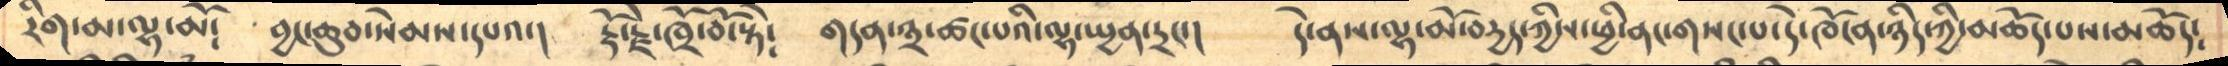རིག་མ་ལྷ་མོ༴   བྱང་ཆུབ་སེམས་དཔའ་།   རྡོ་རྗེ་ཁྲོ་བོ་སྟེ༴   གདན་༣་ཚང་པའི་ལྷ་སྤྱན་དྲང་།   དེ་ནས་ལྷ་མོ་བདྱད་ཀྱིས་ཕྱི་ནང་གསང་པ་དེ་ཁོ་ན་ཉིད་ཀྱི་མཆོད་པས་མཆོད༴
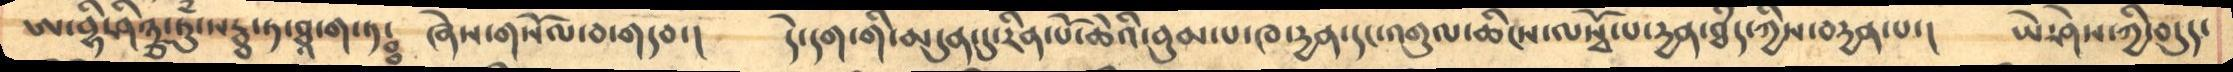ཨ་བྷི་ཤིཉྩ་ཏུཾ་སརྠ་ཏ་ཐཱ་ག་ཏཿ   ཞེས་གསོལ་བ་གདབ་།   དེ་དག་གི་མདུན་དུ་རིན་པོ་ཆེའི་བུམ་པ་ཁ་དྱན་དང་འགུལ་ཆིངས་ལསྭོ་པ་དྱན་ཐཾད་ཀྱིས་བདྱན་པ་།   ཡེ་ཤེས་ཀྱི་བདུད་
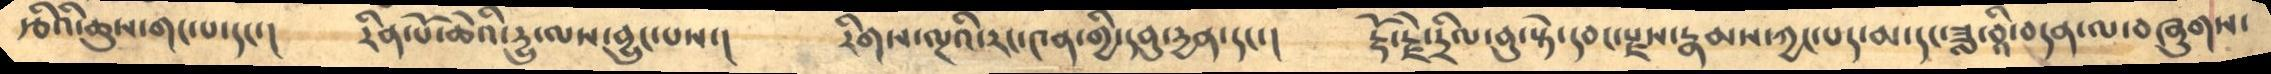རྩིའི་ཆུས་གང་པ་དང་།    རིན་པོ་ཆེའི་དྱུ་ལས་བྱུང་པས་།    རིགས་ལྔའི་རང་༤ན་གྱི་དབུ་དྱན་དང་།   རྡོ་རྗེ་དྲིལ་བུ་སྟེ་དབང་རྫས་རྣམས་ཀྱང་པད་མ་དང་ཟླ་བི་བདན་ལ་བཞུགས་
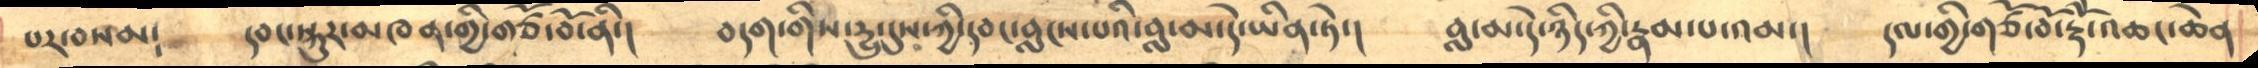པར་བསམ༴   དབང་སྐུར་མཁན་གྱི་གཙོ་བོ་ནི་།   བདག་གིས་དྱུ་དུས་ཀྱི་དབང་བླངས་པའི་བླ་མ་དེ་ཡིན་ཏེ་།   བླ་མ་དེ་ཉིད་ཀྱི་རྣམ་པ་འམ་།   དལ་གྱི་གཙོ་བོ་རྡོ་ེ་འཆང་ཆེན
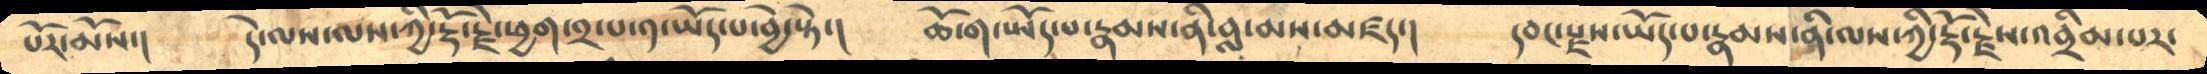སོར་མོས་།    དེ་ལས་ལས་ཀྱི་རྡོ་རྗེ་ཕྱག་༢་པ་༡་ཡོད་པ་བྱེ་སྟེ་་།   ཆོ་ག་ཡོད་པ་རྣམས་ནི་བླ་མས་མཛད་།    དབང་རྫས་ཡོད་པ་རྣམས་ནི་ལས་ཀྱི་རྡོ་རྗེས་འབྲིམ་པར་
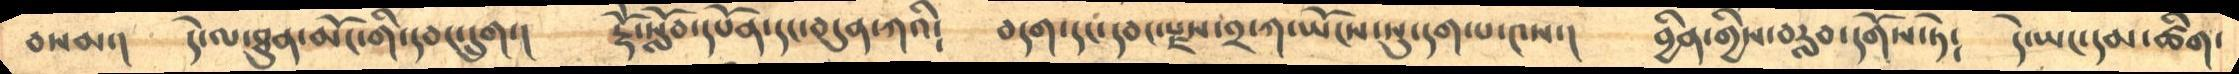བསམ་།   དེ་ལ་ཐུན་མོང་གི་དབང་དྲུག་།   རྡོེ་སློབ་དཔོན་དང་བདུན་ཀའི༴     བདག་དང་དབང་རྫས་༢་ཀ་ཡོངས་སུ་དག་པ་༤ས་།   བྱིན་གྱིས་བརླབ་དགོས་ཏེ༴    དེ་ཡང་དམ་ཚིག་
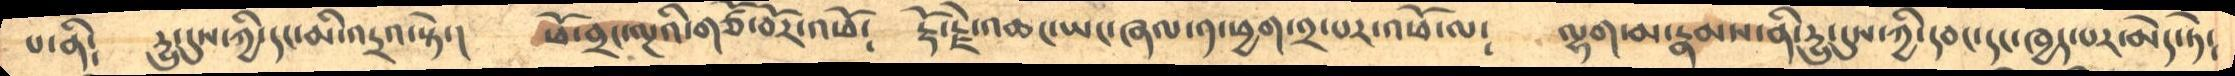པ་ནི༴   དྱུ་དུས་ཀྱི་དང་མི་འདྲའ་སྟེ་།   ཕོ་བྲང་ལྔའི་གཙོ་བོར་འཕོ༴   རྡོ་རྗེ་འཆང་ཡང་ཞལ་༡་ཕྱག་༢་པར་འཕོ་ལ༴  ལྷག་མ་རྣམས་ནི་དྱུ་དུས་ཀྱི་དབང་དང་ཁྱད་པར་མེད་ཏེ༴
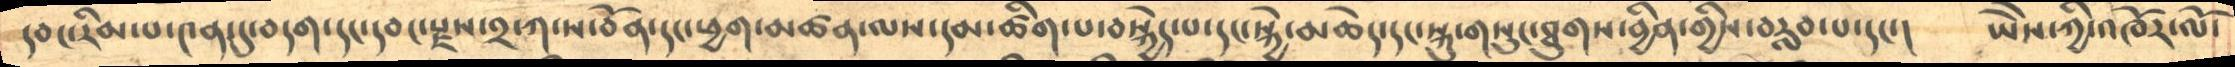དབང་རིམ་པ་༤ན་དུ་བདག་དང་དབང་རྫས་༢་ཀ་ས་བོན་དང་ཕྱག་མཚན་ལས་དམ་ཚིག་པ་བསྐྱེད་པ་དང་སྐྱེ་མཆེད་དང་སྐུ་གསུང་ཐུགས་བྱིན་གྱིས་བརླབ་པ་དང་།  ཡཻས་ཀྱི་འཁོར་ལོ་
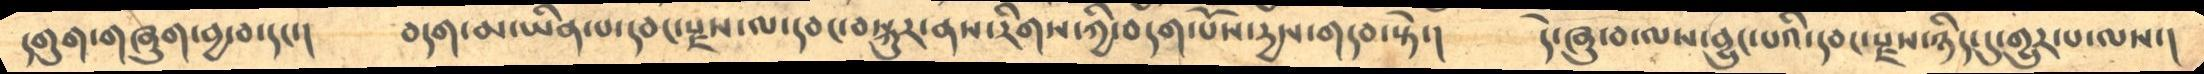དགུག་གཞུག་བྱ་བ་དང་།    བདག་མ་ཡིན་པ་དབང་རྫས་ལ་དབང་བསྐུར་ནས་རིགས་ཀྱི་བདག་པོས་དྱས་གདབ་སྟེ་།    དེ་ཞུ་བ་ལས་བྱུང་པའི་དབང་རྫས་ཉིད་དུ་གྱུར་པ་ལས་།
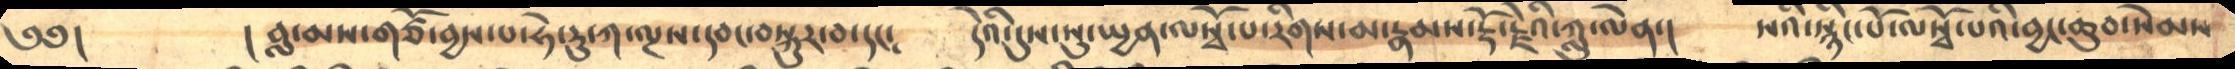༄༅།        ། བླ་མས་གཙོ་བྱས་པ་ཧེ་རུ་ཀ་ལྔས་དབང་བསྐུར་བ་དང༴    དེའི་དུས་སུ་སྤྱན་ལསྭོ་པ་རིགས་མ་རྣམས་རྡོ་རྗེའི་ཀླུ་ལེན་།    སའི་སྙིང་པོ་ལསྭོ་པའི་བྱང་ཆུབ་སེམས
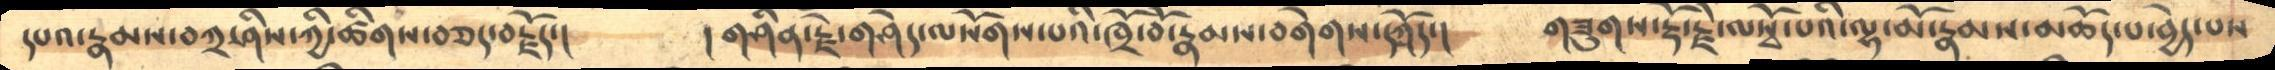དཔའ་རྣམས་བཀྲ་ཤིས་ཀྱི་ཚིགས་བཅད་བརྗོད་།    །གཤིན་རྗེ་གཤེད་ལསོགས་པའི་ཁྲོ་བོ་རྣམས་བགེགས་དཀྲོད་།      གཟུགས་རྡོ་རྗེ་ལསྭོ་པའི་ལྷ་མོ་རྣམས་མཆོད་པ་བྱེད་པས
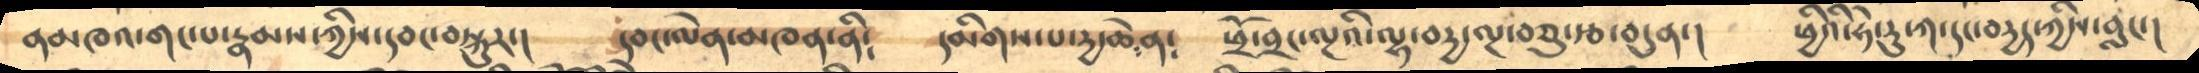ནམཁའ་གང་པ་རྣམས་ཀྱིས་དབང་བསྐུར་།    དབང་ལེན་མཁན་ནི༴   དམིགས་པ་དྱ་ཆེན༴   ཕྲོ་བྲང་ལྔའི་ལྷ་བདྱ་ལྔ་བཅུ་རྩ་བདུན་།  ཕྱིའི་ཧེ་རུ་ཀ་དང་བདྱད་ཀྱིས་བླང་།
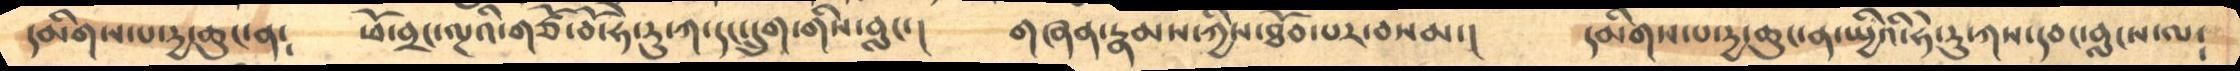དམིགས་པ་དྱ་ཆུང་ན༴    ཕོ་བྲང་ལྔའི་གཙོ་བོ་ཧེ་རུ་ཀ་དང་དྲུག་གིས་བླང་།     གཞན་རྣམས་ཀྱིས་ཐོབ་པར་བསམ་།    དམིགས་པ་དྱ་ཆུང་ན་སྤྱིའི་ཧེ་རུ་ཀས་དབང་བླངས་ལ༴
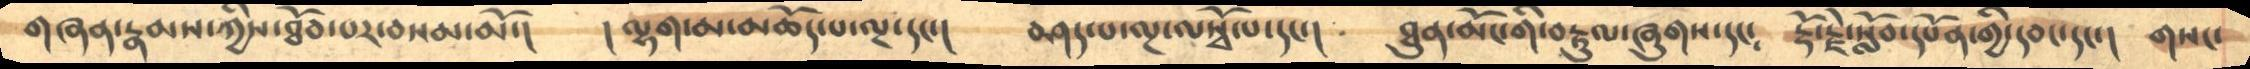གཞན་རྣམས་ཀྱིས་ཐོབ་པར་བསམ་མོ་།   །ལྷག་མ་མཆོད་པ་ལྔ་དང་།   བཤད་པ་ལྔ་ལསྭོ་པ་དང་།    ཐུན་མོང་གི་བརྟུལ་ཞུགས་དང༴    རྡོ་རྗེ་སློབ་དཔོན་གྱི་དབང་དང་།  གསང་
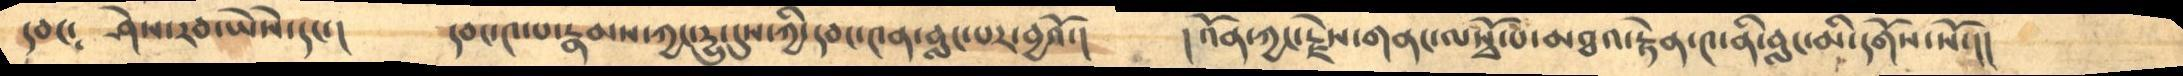དབང༴   ཤེས་རབ་ཡཻས་དང་།    དབང་༤་པ་རྣམས་ཀྱང་དྱུ་དུས་ཀྱི་དབང་༤ན་བླང་པར་བྱའོ་།   །འོན་ཀྱང་རྗེས་གནང་ལསྭོ་པ་མཐའ་རྟེན་༤་ནི་བླང་མི་དགོས་སོ་།།
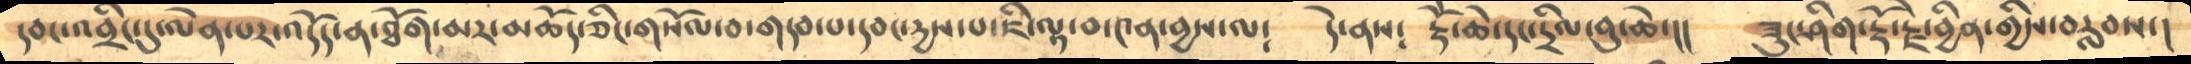དབང་འབྲིང་དུ་ལེན་པར་འདོད་ན་ཐོག་མར་མཆོད་ཅིང་གསོལ་བ་གདབ་པ་དབང་དྱས་པ་ཇི་ལྟ་བ་༤ན་བྱས་ལ༴    དེ་ནས༴  རྡོེ་ཆེ་དང་དྲོལ་བུ་ཆེ་།།   ཟུང་ཤིག་རྡོ་རྗེ་བྱིན་གྱིས་བརླབས་།
